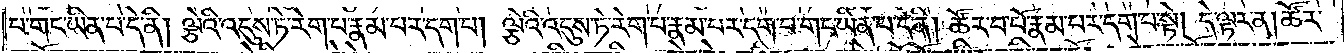པ་གང་ཡིན་པ་དེ་ནི། ལྕེའི་འདུས་ཏེ་རེག་པ་རྣམ་པར་དག་པ། ལྕེའི་འདུས་ཏེ་རེག་པ་རྣམ་པར་དག་པ་གང་ཡིན་པ་དེ་ནི། ཚོར་བ་པོ་རྣམ་པར་དག་པ་སྟེ། དེ་ལྟར་ན། ཚོར་
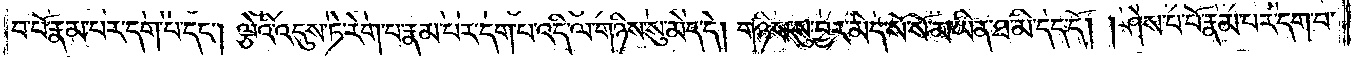བ་པོ་རྣམ་པར་དག་པ་དང༌། ལྕེའི་འདུས་ཏེ་རེག་པ་རྣམ་པར་དག་པ་འདི་ལ་གཉིས་སུ་མེད་དེ། གཉིས་སུ་བྱར་མེད་སོ་སོ་མ་ཡིན་ཐ་མི་དད་དོ། །ཤེས་པ་པོ་རྣམ་པར་དག་པ་
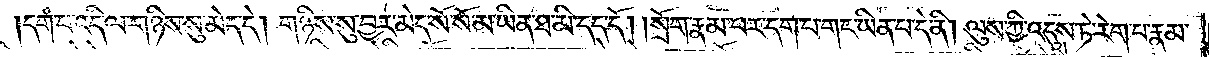དག་པ་འདི་ལ་གཉིས་སུ་མེད་དེ། གཉིས་སུ་བྱར་མེད་སོ་སོ་མ་ཡིན་ཐ་མི་དད་དོ། །སྲོག་རྣམ་པར་དག་པ་གང་ཡིན་པ་དེ་ནི། ལུས་ཀྱི་འདུས་ཏེ་རེག་པ་རྣམ་
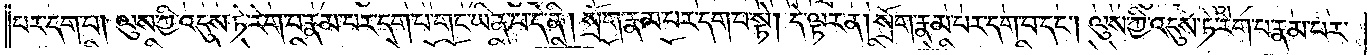པར་དག་པ། ལུས་ཀྱི་འདུས་ཏེ་རེག་པ་རྣམ་པར་དག་པ་གང་ཡིན་པ་དེ་ནི། སྲོག་རྣམ་པར་དག་པ་སྟེ། དེ་ལྟར་ན། སྲོག་རྣམ་པར་དག་པ་དང༌། ལུས་ཀྱི་འདུས་ཏེ་རེག་པ་རྣམ་པར་
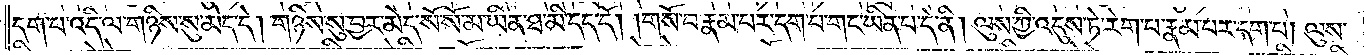དག་པ་འདི་ལ་གཉིས་སུ་མེད་དེ། གཉིས་སུ་བྱར་མེད་སོ་སོ་མ་ཡིན་ཐ་མི་དད་དོ། །གསོ་བ་རྣམ་པར་དག་པ་གང་ཡིན་པ་དེ་ནི། ལུས་ཀྱི་འདུས་ཏེ་རེག་པ་རྣམ་པར་དག་པ། ལུས་
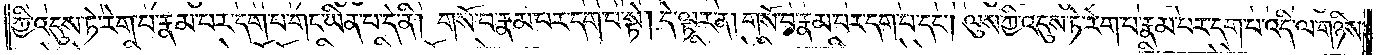ཀྱི་འདུས་ཏེ་རེག་པ་རྣམ་པར་དག་པ་གང་ཡིན་པ་དེ་ནི། གསོ་བ་རྣམ་པར་དག་པ་སྟེ། དེ་ལྟར་ན། གསོ་བ་རྣམ་པར་དག་པ་དང༌། ལུས་ཀྱི་འདུས་ཏེ་རེག་པ་རྣམ་པར་དག་པ་འདི་ལ་གཉིས་
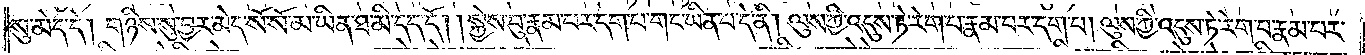སུ་མེད་དེ། གཉིས་སུ་བྱར་མེད་སོ་སོ་མ་ཡིན་ཐ་མི་དད་དོ། །སྐྱེས་བུ་རྣམ་པར་དག་པ་གང་ཡིན་པ་དེ་ནི། ལུས་ཀྱི་འདུས་ཏེ་རེག་པ་རྣམ་པར་དག་པ། ལུས་ཀྱི་འདུས་ཏེ་རེག་པ་རྣམ་པར་
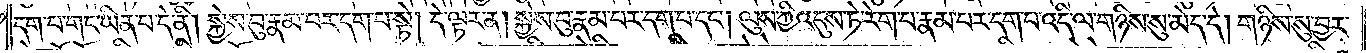དག་པ་གང་ཡིན་པ་དེ་ནི། སྐྱེས་བུ་རྣམ་པར་དག་པ་སྟེ། དེ་ལྟར་ན། སྐྱེས་བུ་རྣམ་པར་དག་པ་དང༌། ལུས་ཀྱི་འདུས་ཏེ་རེག་པ་རྣམ་པར་དག་པ་འདི་ལ་གཉིས་སུ་མེད་དེ། གཉིས་སུ་བྱར་
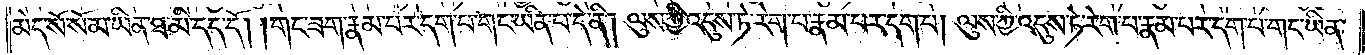མེད་སོ་སོ་མ་ཡིན་ཐ་མི་དད་དོ། །གང་ཟག་རྣམ་པར་དག་པ་གང་ཡིན་པ་དེ་ནི། ལུས་ཀྱི་འདུས་ཏེ་རེག་པ་རྣམ་པར་དག་པ། ལུས་ཀྱི་འདུས་ཏེ་རེག་པ་རྣམ་པར་དག་པ་གང་ཡིན་
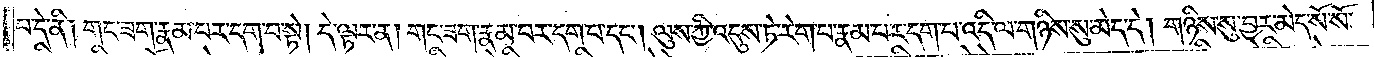པ་དེ་ནི། གང་ཟག་རྣམ་པར་དག་པ་སྟེ། དེ་ལྟར་ན། གང་ཟག་རྣམ་པར་དག་པ་དང༌། ལུས་ཀྱི་འདུས་ཏེ་རེག་པ་རྣམ་པར་དག་པ་འདི་ལ་གཉིས་སུ་མེད་དེ། གཉིས་སུ་བྱར་མེད་སོ་སོ་
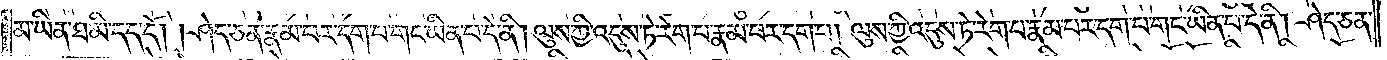མ་ཡིན་ཐ་མི་དད་དོ། །ཤེད་ཅན་རྣམ་པར་དག་པ་གང་ཡིན་པ་དེ་ནི། ལུས་ཀྱི་འདུས་ཏེ་རེག་པ་རྣམ་པར་དག་པ། ལུས་ཀྱི་འདུས་ཏེ་རེག་པ་རྣམ་པར་དག་པ་གང་ཡིན་པ་དེ་ནི། ཤེད་ཅན་
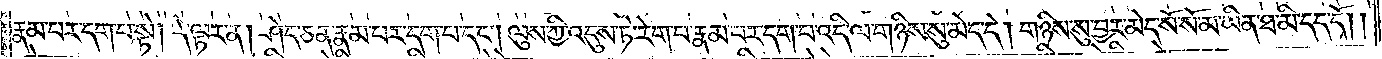རྣམ་པར་དག་པ་སྟེ། དེ་ལྟར་ན། ཤེད་ཅན་རྣམ་པར་དག་པ་དང༌། ལུས་ཀྱི་འདུས་ཏེ་རེག་པ་རྣམ་པར་དག་པ་འདི་ལ་གཉིས་སུ་མེད་དེ། གཉིས་སུ་བྱར་མེད་སོ་སོ་མ་ཡིན་ཐ་མི་དད་དོ། །
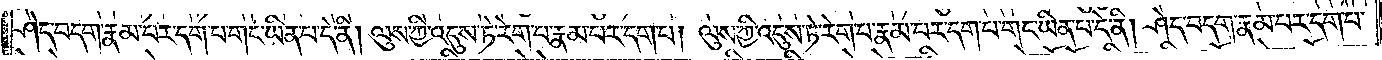ཤེད་བདག་རྣམ་པར་དག་པ་གང་ཡིན་པ་དེ་ནི། ལུས་ཀྱི་འདུས་ཏེ་རེག་པ་རྣམ་པར་དག་པ། ལུས་ཀྱི་འདུས་ཏེ་རེག་པ་རྣམ་པར་དག་པ་གང་ཡིན་པ་དེ་ནི། ཤེད་བདག་རྣམ་པར་དག་པ་
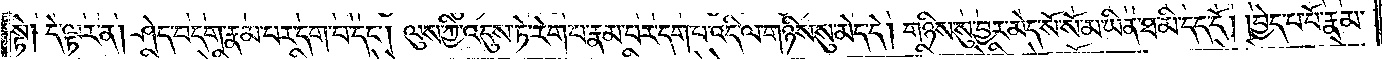སྟེ། དེ་ལྟར་ན། ཤེད་བདག་རྣམ་པར་དག་པ་དང༌། ལུས་ཀྱི་འདུས་ཏེ་རེག་པ་རྣམ་པར་དག་པ་འདི་ལ་གཉིས་སུ་མེད་དེ། གཉིས་སུ་བྱར་མེད་སོ་སོ་མ་ཡིན་ཐ་མི་དད་དོ། །བྱེད་པ་པོ་རྣམ་
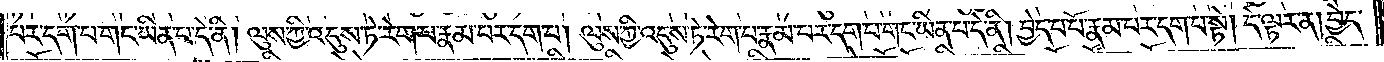པར་དག་པ་གང་ཡིན་པ་དེ་ནི། ལུས་ཀྱི་འདུས་ཏེ་རེག་པ་རྣམ་པར་དག་པ། ལུས་ཀྱི་འདུས་ཏེ་རེག་པ་རྣམ་པར་དག་པ་གང་ཡིན་པ་དེ་ནི། བྱེད་པ་པོ་རྣམ་པར་དག་པ་སྟེ། དེ་ལྟར་ན། བྱེད་
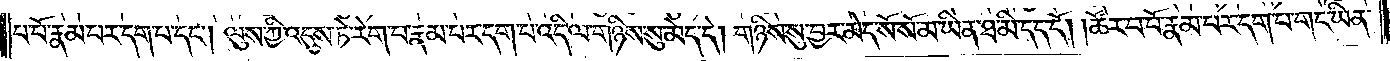པ་པོ་རྣམ་པར་དག་པ་དང༌། ལུས་ཀྱི་འདུས་ཏེ་རེག་པ་རྣམ་པར་དག་པ་འདི་ལ་གཉིས་སུ་མེད་དེ། གཉིས་སུ་བྱར་མེད་སོ་སོ་མ་ཡིན་ཐ་མི་དད་དོ། །ཚོར་བ་པོ་རྣམ་པར་དག་པ་གང་ཡིན་
